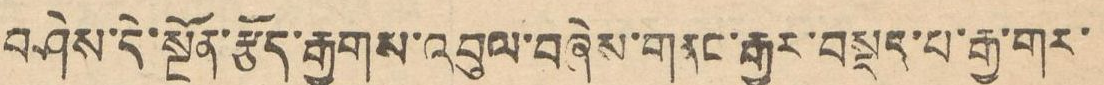བཤེས་དེ་སྔོན་རྩོད་རྒྱུགས་འབུལ་བཞེས་གནང་རྒྱུར་བསྡད་པ་རྒྱ་གར་
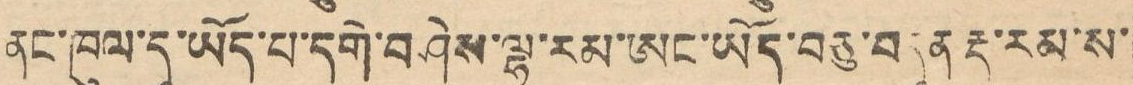ནང་ཁུལ་དུ་ཡོད་པ་དགེ་བཤེས་ལྷ་རམ་ཨང་ཡོད་བཅུ་བདུན་རྡ་རམ་ས་
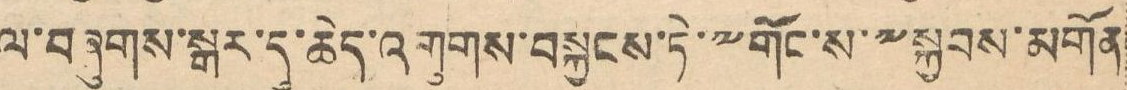ལ་བཞུགས་སྒར་དུ་ཆེད་འགུགས་བསྐྱངས་ཏེ་༸གོང་ས་༸སྐྱབས་མགོན
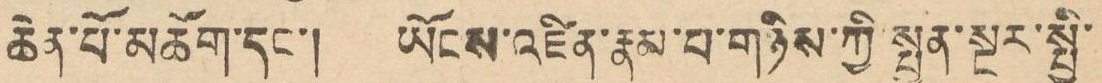ཆེན་པོ་མཆོག་དང་། ཡོངས་འཛིན་རྣམ་པ་གཉིས་ཀྱི་སྤྱན་སྔར་སྤྱི་
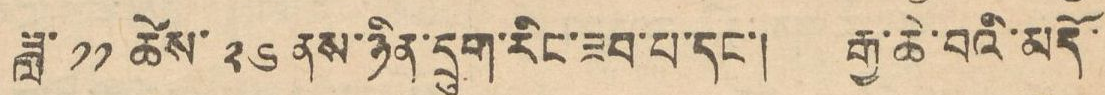ཟླ་ ༡༡ ཚེས་ ༢༦ ནས་ཉིན་དྲུག་རིང་ཟབ་པ་དང་། རྒྱ་ཆེ་བའི་མདོ་
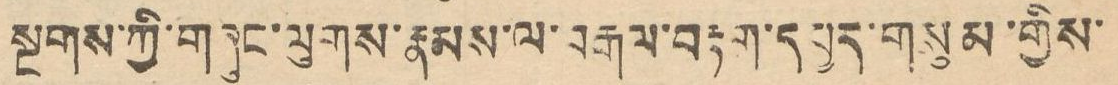སྔགས་ཀྱི་གཞུང་ལུགས་རྣམས་ལ་བརྒལ་བརྟག་དཔྱད་གསུམ་གྱིས་
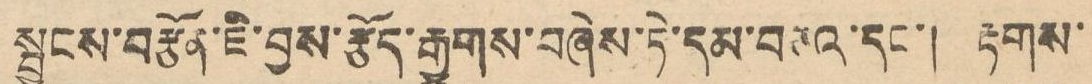སྦྱངས་བརྩོན་ཇི་བྱས་རྩོད་རྒྱུགས་བཞེས་ཏེ་དམ་བཅའ་དང་། རྟགས་
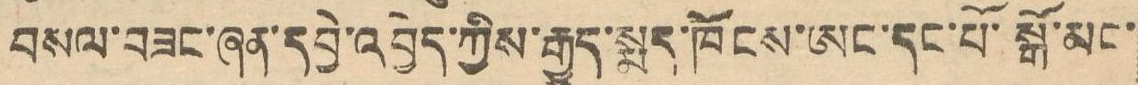བསལ་བཟང་ཞན་དབྱེ་འབྱེད་ཀྱིས་རྒྱུད་སྨད་ཁོངས་ཨང་དང་པོ་སྒོ་མང་
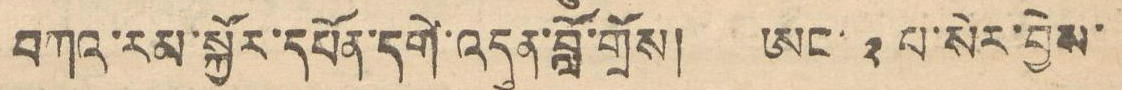བཀའ་རམ་སྐྱོར་དཔོན་དགེ་འདུན་བློ་གྲོས། ཨང་ ༢ པ་སེར་བྱེས་
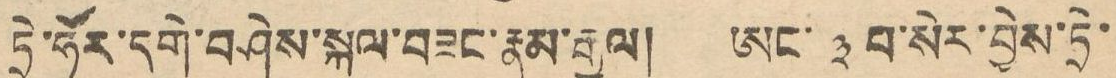ཏྲེ་ཧོར་དགེ་བཤེས་སྐལ་བཟང་རྣམ་རྒྱལ། ཨང་ ༣ བ་སེར་བྱེས་ཏྲེ་
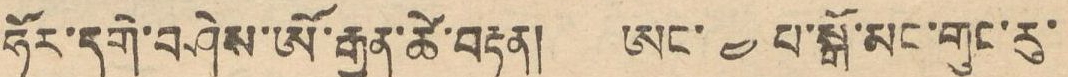ཧོར་དགེ་བཤེས་ཨོ་རྒྱན་ཚེ་བརྟན། ཨང་ ༤ པ་སྒོ་མང་གུང་རུ་
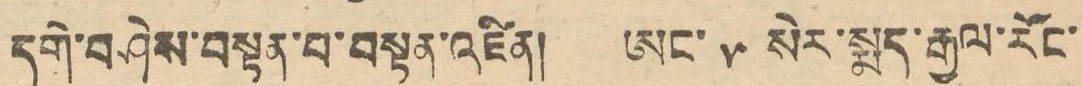དགེ་བཤེས་བསྟན་བ་བསྟན་འཛིན། ཨང་ ༥ སེར་སྨད་རྒྱལ་རོང་
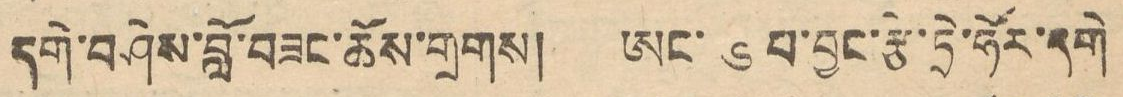དགེ་བཤེས་བློ་བཟང་ཆོས་གྲགས། ཨང་ ༦ པ་བྱང་རྩེ་ཏྲེ་ཧོར་དགེ
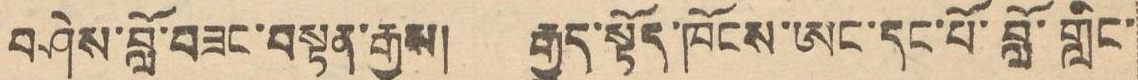བཤེས་བློ་བཟང་བསྟན་རྒྱས། རྒྱུད་སྟོད་ཁོངས་ཨང་དང་པོ་བློ་གླིང་
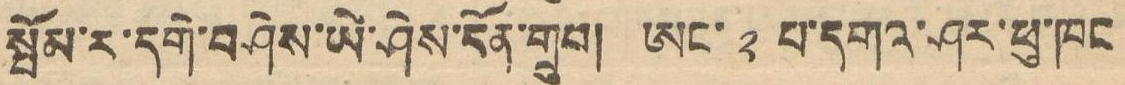སྤོམ་ར་དགེ་བཤེས་ཡེ་ཤེས་དོན་གྲུབ། ཨང་ ༢ པ་དགའ་ཤར་ཕུ་ཁང
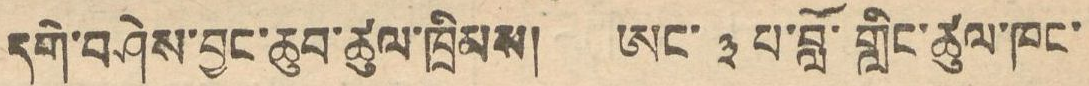དགེ་བཤེས་བྱང་ཆུབ་ཚུལ་ཁྲིམས། ཨང་ ༣ པ་བློ་གླིང་ཚུལ་ཁང་
